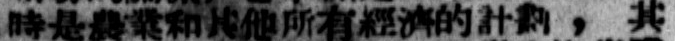時是農業和其他所有經濟的計劃 ， 其
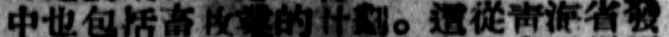中也包括畜牧業的計劃。這從靑海省發
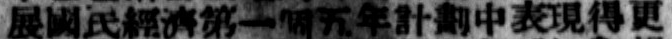展國民經濟第一個五年計劃中表現得更
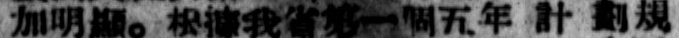加明顯。根據我省第一個五年 計 劃規
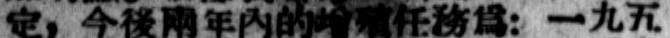定，今後兩年內的增產任務爲：一九五
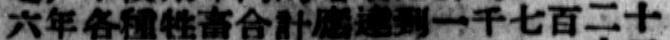六年各種牲畜合計應達到一千七百二十
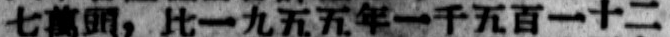七萬頭，比一九五五年一千五百一十二
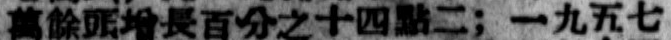萬餘頭增長百分之十四點二；一九五七
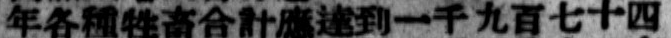年各種牲畜合計應達到一千九百七十四
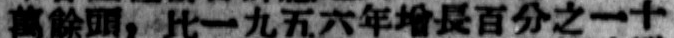萬餘頭，比一九五六年增長百分之一十
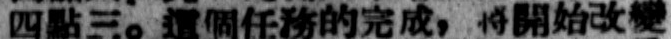四點三。這個任務的完成，將開始改變
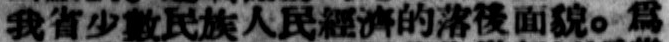我省少數民族人民經濟的落後面貌。爲
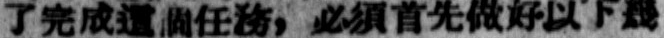了完成這個任務，必須首先做好以下幾
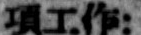項工作：
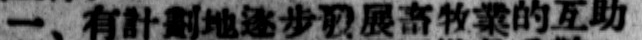一、有計劃地逐步發展畜牧業的互助
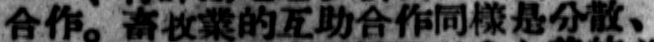合作。畜牧業的互助合作同樣是分散、
